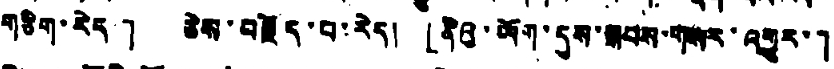གཅིག་རེད།」 ཅེས་བརྗོད་པ་རེད། 「ནིའུ་ཡོག་དུས་སྐབས་གསར་འགྱུར་」
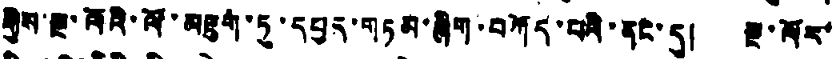གྱིས་སྔ་ལོའི་ལོ་མཇུག་ཏུ་དཔྱད་གཏམ་ཞིག་བཀོད་པའི་ནང་དུ། སྔ་ལོར་
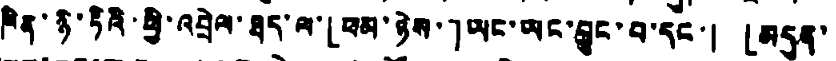ཁིན་ཉི་ཏིའི་ཕྱི་འབྲེལ་ཐད་ལ་「ཕམ་ཉེས་」ཡང་ཡང་བྱུང་བ་དང་ 「མདུན་
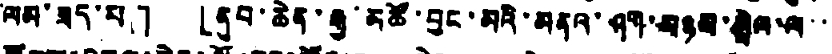ལམ་ཟད་པ།」 「ནུབ་ཆེན་རྒྱ་མཚོ་བྱང་མའི་མནའ་ཤག་མཉམ་སྦྲེལ་ལ་་
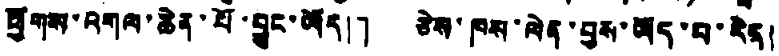ཕྱོགས་འགལ་ཆེན་པོ་བྱུང་ཡོད།」 ཅེས་ཁས་ལེན་བྱས་ཡོད་པ་རེད།
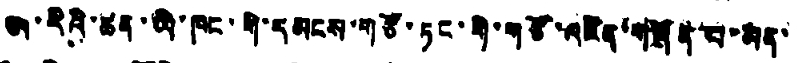ཨ་རིའི་ཚན་ཡི་ཁང་གི་དམངས་གཙོ་ཏང་གི་གཙོ་མཛིན་གཞོན་པ་མན་
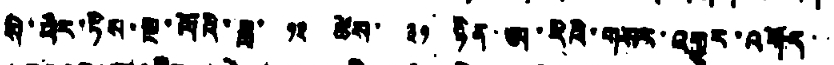སི་ཕེར་ཏིས་སྔ་ལོའི་ཟླ་ ༡༢ ཚེས་ ༣༡ ཉིན་ཨ་རིའི་གསར་འགྱུར་འགོད་་
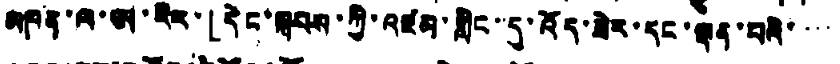མཁན་ལ་ཨ་རིར་「དེང་སྐབས་ཀྱི་འཛམ་གླིང་དུ་འོད་སེར་དང་ལྡན་པའི་་་་
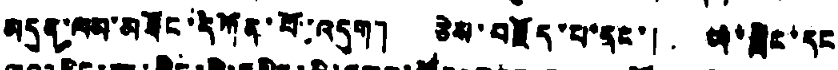མདུན་ལམ་མཐོང་དཀོན་པ་་འདུག」 ཅེས་བརྗོད་པ་དང་། ཡ་གླིང་དང
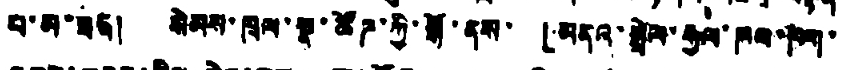པ་མ་ཟད། སེམས་ཁྲལ་སྣ་ཚོཌ་ཀྱི་སྒོ་ནས་ 「མནའ་སྦྲེལ་རྒྱལ་ཁབ་ཁག་
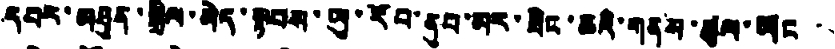དབར་མཐུན་སྒྲིལ་མེད་སྟབས་ཡུ་རོབ་ནུབ་མར་ཟིང་ཆའི་གནས་ཚུལ་ཡོང་
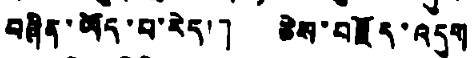བཞིན་ཡོད་པ་རེད་།」 ཅེས་བརྗོད་འདུག
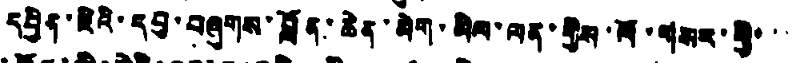དབྱིན་ཇིའི་དབུ་བཞུགས་བློན་ཆེན་མེག་མིལ་ལན་གྱིས་ལོ་གསར་གྱི་་་
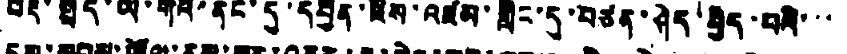བརྡ་སྤྲོད་ཡི་གེའི་ནང་དུ་དབྱིན་ཇིས་འཛམ་གླིང་དུ་བཙན་ཤེད་བྱེད་པའི་་་
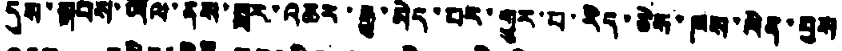དུས་སྐབས་ཡོལ་ནས་སླར་འཆར་རྒྱུ་མེད་པར་གྱུར་པ་རེད་ཅེས་ཁས་ལེན་བྱས
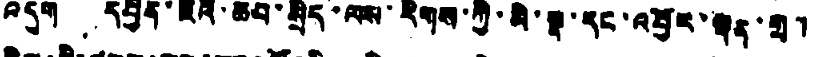འདུག དབྱིན་ཇིའི་ཆབ་སྲིད་ལས་རིགས་ཀྱི་མི་སྣ་དང་འབྱོར་ལྡན་གྲ།
